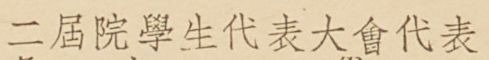二屆院學生代表大會代表
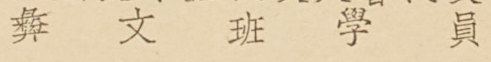彝 文 班 學 員
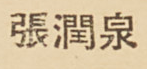張潤泉
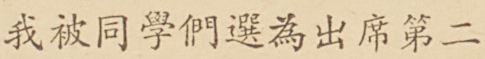我被同學們選為出席第二
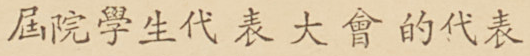屆院學生代表大會的代表
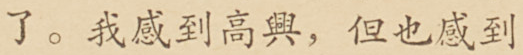了。我感到高興，但也感到
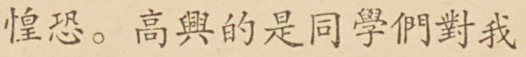惶恐。高興的是同學們對我
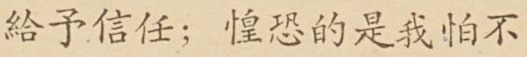給予信任；惶恐的是我怕不
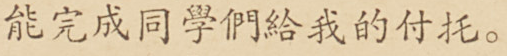能完成同學們給我的付托。
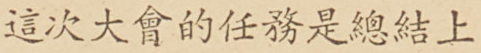這次大會的任務是總結上
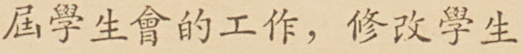屆學生會的工作，修改學生
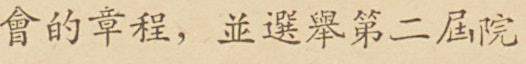會的章程，並選舉第二屆院
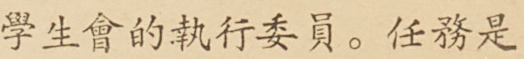學生會的執行委員。任務是
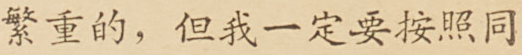繁重的，但我一定要按照同
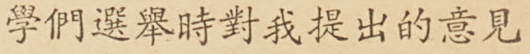學們選舉時對我提出的意見
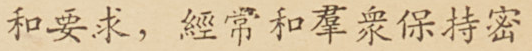和要求，經常和羣衆保持密
